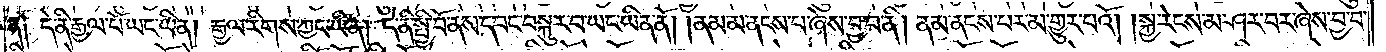ན༑ དེ་ནི་རྒྱལ་པོ་ཡང་ཡིན། རྒྱལ་རིགས་ཀྱང་ཡིན། དེ་ནི་སྤྱི་བོ་ནས་དབང་བསྐུར་བ་ཡང་ཡིན་ནོ། །ནམ་མ་ནངས་པ་ཞེས་བྱ་བ་ནི། ནམ་ནངས་པར་མ་གྱུར་བའོ། །སྐྱ་རེངས་མ་ཤར་བར་ཞེས་བྱ་བ་
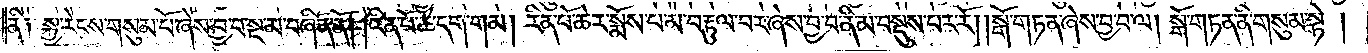ནི༑ སྐྱ་རེངས་གསུམ་པོ་ཞེས་བྱ་བ་སྔ་མ་བཞིན་ནོ། །རིན་པོ་ཆེ་དག་གམ། རིན་པོ་ཆེར་སྨོས་པ་མ་བརྟུལ་བར་ཞེས་བྱ་བ་ནི་མ་བསྡུས་པར་རོ། །སྒོ་གཏན་ཞེས་བྱ་བ་ལ། སྒོ་གཏན་ནི་གསུམ་སྟེ་།
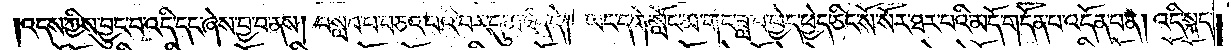འདས་ཀྱིས་བྱུང་བ་འདི་དང་ཞེས་བྱ་བ་ནས། བསླབ་པ་བཅའ་བའི་བར་དུ་མཛད་དེ། ཡང་དགེ་སློང་མ་གང་ཟླ་བ་ཕྱེད་ཕྱེད་ཅིང་སོ་སོར་ཐར་པའི་མདོ་གདོན་པ་འདོན་པ་ན། འདི་སྐད་
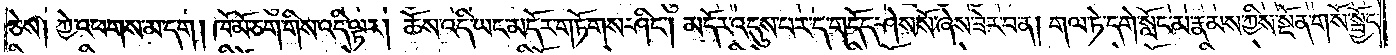ཅེས། ཀྱེ་འཕགས་མ་དག། ཁོ་མོ་ཅག་གིས་འདི་ལྟར། ཆོས་འདི་ཡང་མདོར་གཏོགས་ཤིང༌། མདོར་འདུས་པར་ད་གདོད་ཤེས་སོ་ཞེས་ཟེར་བ་ན། གལ་ཏེ་དགེ་སློང་མ་རྣམས་ཀྱིས་སྔོན་གསོ་སྦྱོང་
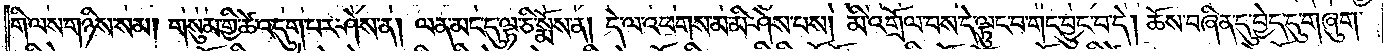གི་ལས་གཉིས་སམ། གསུམ་གྱི་ཚེ་འདུག་པར་ཤེས་ན། ལན་མང་དུ་ལྟ་ཅི་སྨོས་ན། དེ་ལ་འཕགས་མ་མི་ཤེས་པས། མི་འགྲོལ་བས་དེ་ལྟུང་བ་གང་བྱུང་བ་དེ། ཆོས་བཞིན་དུ་བྱེད་དུ་གཞུག་
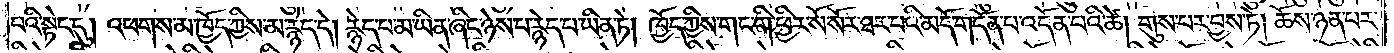པའི་སྟེང་དུ། འཕགས་མ་ཁྱོད་ཀྱིས་མ་རྙེད་དེ། རྙེད་པ་མ་ཡིན་ཞིང་ཉེས་པ་རྙེད་པ་ཡིན་ཏེ། ཁྱོད་ཀྱིས་གང་གི་ཕྱིར་སོ་སོར་ཐར་པའི་མདོ་གདོན་པ་འདོན་པའི་ཚེ། གུས་པར་བྱས་ཏེ། ཆོས་ཉན་པར་
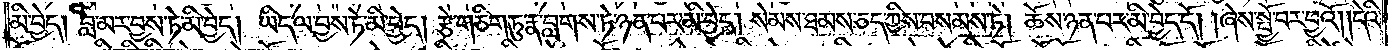མི་བྱེད། བླ་མར་བྱས་ཏེ་མི་བྱེད། ཡིད་ལ་བྱས་ཏེ་མི་བྱེད། རྩེ་གཅིག་ཏུ་རྣ་བླགས་ཏེ་ཉན་པར་མི་བྱེད། སེམས་ཐམས་ཅད་ཀྱིས་བསམས་ཏེ། ཆོས་ཉན་པར་མི་བྱེད་དོ། །ཞེས་སྤྱོ་བར་བྱའོ༎དེའི་
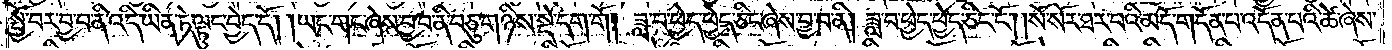སྤྱོ་བར་བྱ་བ་ནི་འདི་ཡིན་ཏེ་ལྟུང་བྱེད་དོ། །ཡང་གང་ཞེས་བྱ་བ་ནི་བཅུ་གཉིས་སྡེ་དག་གོ། ཟླ་བ་ཕྱེད་ཕྱེད་ཅིང་ཞེས་བྱ་བ་ནི། ཟླ་བ་ཕྱེད་ཕྱེད་ཅིང་ངོ༌། །སོ་སོར་ཐར་པའི་མདོ་གདོན་པ་འདོན་པའི་ཚེ་ཞེས་
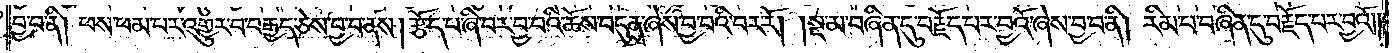བྱ་བ་ནི། ཕས་ཕམ་པར་འགྱུར་བ་བརྒྱད་ཅེས་བྱ་བ་ནས། རྩོད་པ་ཞི་བར་བྱ་བའི་ཆོས་བདུན་ཞེས་བྱ་བའི་བར་རོ། །སྔ་མ་བཞིན་དུ་བརྗོད་པར་བྱའོ་ཞེས་བྱ་བ་ནི། རིམ་པ་བཞིན་དུ་བརྗོད་པར་བྱའོ༎
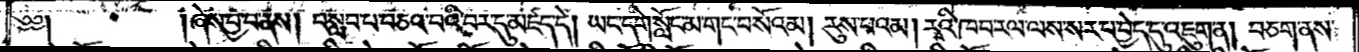༄༅༎ཞེས་བྱ་བ་ནས། བསླབ་པ་བཅའ་བའི་བར་དུ་མཛད་དེ། ཡང་དགེ་སློང་མ་གང་བ་སོའམ། རུས་པའམ། རྭའི་ཁབ་རལ་ལས་སར་པ་བྱེད་དུ་འཇུག་ན། བཅག་ནས་
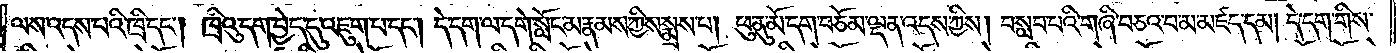ལས་འདས་པའི་ཁྲི་དང༌། ཁྲིའུ་དག་བྱེད་དུ་འཇུག་པ་དང༌། དེ་དག་ལ་དགེ་སློང་མ་རྣམས་ཀྱིས་སྨྲས་པ། ཕུ་ནུ་མོ་དག་བཅོམ་ལྡན་འདས་ཀྱིས། བསླབ་པའི་གཞི་བཅའ་བ་མ་མཛད་དམ། དེ་དག་གིས་
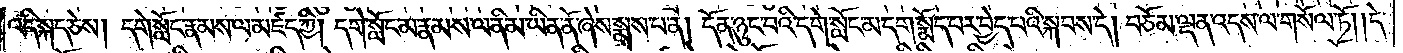འདི་སྐད་ཅེས། དགེ་སློང་རྣམས་ལ་མཛད་ཀྱི། དགེ་སློང་མ་རྣམས་ལ་ནི་མ་ཡིན་ནོ་ཞེས་སྨྲས་པ་ན། དོན་ཉུང་བའི་དགེ་སློང་མ་དག་སྨེད་པར་བྱེད་པའི་སྐབས་ད། བཅོམ་ལྡན་འདས་ལ་གསོལ་ཏོ། །དེ་
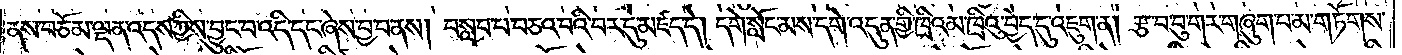ནས་བཅོམ་ལྡན་འདས་ཀྱིས་བྱུང་བ་འདི་དང་ཞེས་བྱ་བ་ནས། བསླབ་པ་བཅའ་བའི་བར་དུ་མཛད་དེ། དགེ་སློང་མས་དགེ་འདུན་གྱི་ཁྲིའམ་ཁྲིའུ་བྱེད་དུ་འཇུག་ན། རྩ་བ་བུ་གར་གཞུག་པ་མ་གཏོགས་
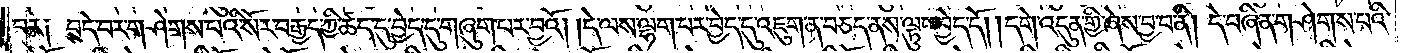བར༑ བདེ་བར་གཤེགས་པའི་སོར་བརྒྱད་ཀྱི་ཚད་དུ་བྱེད་དུ་གཞུག་པར་བྱའོ། །དེ་ལས་ལྷག་པར་བྱེད་དུ་འཇུག་ན་བཅད་ནས་ལྟུང་བྱེད་དོ། །དགེ་འདུན་གྱི་ཞེས་བྱ་བ་ནི། དེ་བཞིན་གཤེགས་པའི་
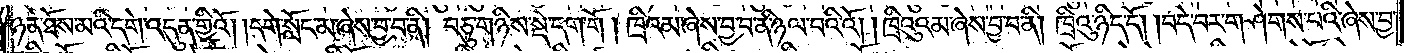ཉན་ཐོས་མའི་དགེ་འདུན་གྱིའོ། །དགེ་སློང་མ་ཞེས་བྱ་བ་ནི། བཅུ་གཉིས་སྡེ་དག་གོ། ཁྲིའམ་ཞེས་བྱ་བ་ནི་ཉལ་བའི་འོ། ཁྲིའུའམ་ཞེས་བྱ་བ་ནི། ཁྲིའུ་ཉིད་དོ། །བདེ་བར་གཤེགས་པའི་ཞེས་བྱ་
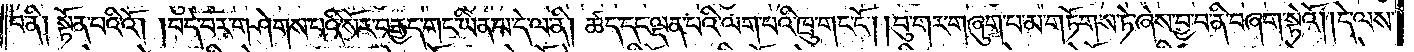བ་ནི། སྟོན་པའིའོ། །བདེ་བར་གཤེགས་པའི་སོར་བརྒྱད་གང་ཡིན་པ་དེ་ལ་ནི། ཚད་དང་ལྡན་པའི་ལག་པའི་ཁྲུ་གང་ངོ༌༎བུ་གར་གཞུག་པ་མ་གཏོགས་ཏེ་ཞེས་བྱ་བ་ནི་བཞག་སྟེའོ། །དེ་ལས་
